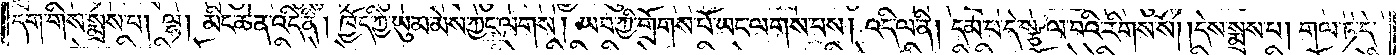དག་གིས་སྨྲས་པ། ལྷ། མིང་ཆེན་འདི་ནི། ཁྱོད་ཀྱི་ཡུམ་མེས་ཀྱང་ལགས། ཡབ་ཀྱི་གྲོགས་པོ་ཡང་ལགས་པས། འདི་ལ་ནི། དམ་པ་དེ་སྩལ་བའི་རིགས་སོ། །དེས་སྨྲས་པ། གལ་ཏེ་དེ་
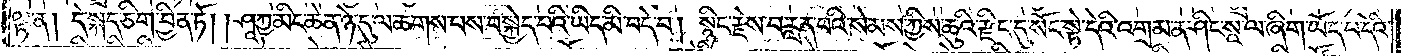ལྟ་ན། དེ་སྐད་ཅིག་བྱིན་ཏོ། །ཤཱཀྱ་མིང་ཆེན་ཉེ་དུ་ལ་ཆགས་པས་བསྐྱེད་པའི་ཡིད་མི་བདེ་བ། སྙིང་རྗེས་བརླན་པའི་སེམས་ཀྱིས་ཆུའི་རྫིང་དུ་སོང་སྟེ་དེའི་འགྲམ་ན་ཤིང་སཱ་ལ་ཞིག་ཡོད་པ་དེའི་
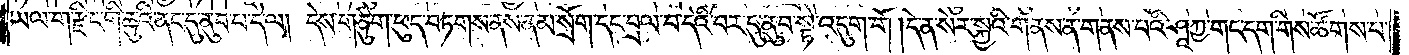ཡལ་ག་རྫིང་གི་ཆུའི་ནང་དུ་ནུབ་པ་དེ་ལ། དེས་གཙུག་ཕུད་བཏགས་ནས་ནམ་སྲོག་དང་བྲལ་བ་དེའི་བར་དུ་ནུབ་སྟེ་འདུག་གོ །དེ་ན་སེར་སྐྱའི་གནས་ན་གནས་པའི་ཤཱཀྱ་གང་དག་གིས་ཚོགས་པ་
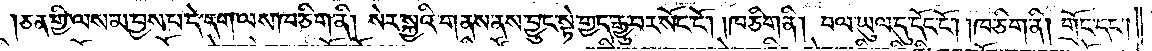ཅན་གྱི་ལས་མ་བྱས་པ་དེ་དག་ལས་ཁ་ཅིག་ནི། སེར་སྐྱའི་གནས་ནས་བྱུང་སྟེ་གྱད་རྒྱུ་བར་སོང་ངོ༌། །ཁ་ཅིག་ནི། བལ་ཡུལ་དུ་དོང་ངོ༌། །ཁ་ཅིག་ནི། གྲོང་དང༌།
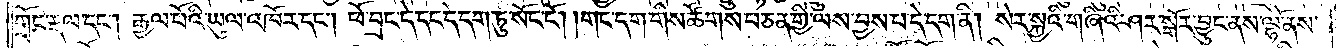གྲོང་རྡལ་དང༌། རྒྱལ་པོའི་ཡུལ་འཁོར་དང༌། ཕོ་བྲང་དེ་དང་དེ་དག་ཏུ་སོང་ངོ༌། །གང་དག་གིས་ཚོགས་པ་ཅན་གྱི་ལས་བྱས་པ་དེ་དག་ནི། སེར་སྐྱའི་གཞིའི་ཤར་སྒོར་བྱུང་ནས་ལྷོ་ནས་
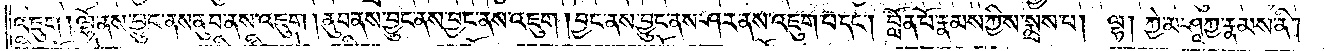འཇུག །ལྷོ་ནས་བྱུང་ནས་ནུབ་ནས་འཇུག །ནུབ་ནས་བྱུང་ནས་བྱང་ནས་འཇུག །བྱང་ནས་བྱུང་ནས་ཤར་ནས་འཇུག་པ་དང༌། བློན་པོ་རྣམས་ཀྱིས་སྨྲས་པ། ལྷ། ཀྱེ་མ་ཤཱཀྱ་རྣམས་ནི།
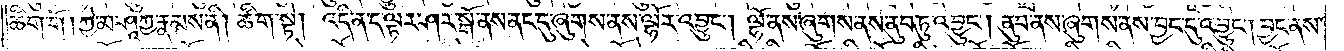ཚིག་གོ །ཀྱེ་མ་ཤཱཀྱ་རྣམས་ནི། ཚིག་སྟེ། འདི་ན་ད་ལྟར་ཤར་སྒོ་ནས་ནང་དུ་ཞུགས་ནས་ལྷོར་འབྱུང༌། ལྷོ་ནས་ཞུགས་ནས་ནུབ་ཏུ་འབྱུང༌། ནུབ་ནས་ཞུགས་ནས་བྱང་དུ་འབྱུང༌། བྱང་ནས་
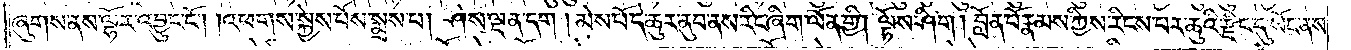ཞུགས་ནས་ལྷོར་འབྱུང་ངོ༌། །འཕགས་སྐྱེས་པོས་སྨྲས་པ། ཤེས་ལྡན་དག །མེས་པོ་དེ་ཆུར་ནུབ་ནས་རིང་ཞིག་ལོན་གྱི། ལྟོས་ཤིག །བློན་པོ་རྣམས་ཀྱིས་རིངས་པར་ཆུའི་རྫིང་དུ་སོང་ནས་
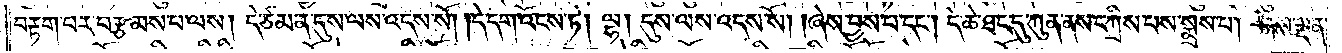བརྟག་པར་བརྩམས་པ་ལས། དེ་ཙམ་ན་དུས་ལས་འདས་སོ། །དེ་དག་འོངས་ཏེ། ལྷ། དུས་ལས་འདས་སོ། །ཞེས་བྱས་པ་དང༌། དེ་ཆེ་ཐང་དུ་ཀུན་ནས་དཀྲིས་པས་སྨྲས་པ། ཤེས་ལྡན་
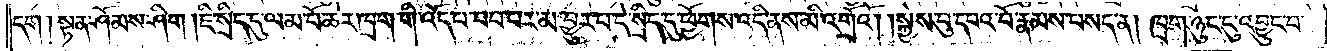དག །སྟན་ཤོམས་ཤིག །ཇི་སྲིད་དུ་ལམ་པོ་ཆེར་ཁྲག་གི་འོད་པ་བབ་པར་མ་བྱུར་པ་དེ་སྲིད་དུ་ཕྱོགས་འདི་ནས་མི་འགྲོའོ། །སྐྱེས་བུ་དཔའ་བོ་རྣམས་བསད་ན། ཁྲག་ཉུང་ངུ་འབྱུང་བ་
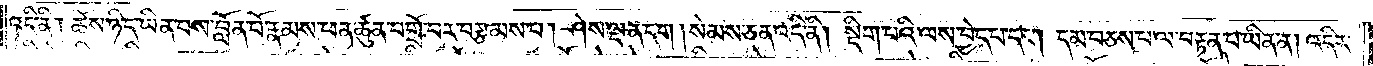འདི་ནི། ཆོས་ཉིད་ཡིན་པས་བློན་པོ་རྣམས་ཕན་ཚུན་བགྲོ་བར་བརྩམས་པ། ཤེས་ལྡན་དག །སེམས་ཅན་འདི་ནི། སྡིག་པའི་ལས་བྱེད་པ་དང༌། དམ་བཅས་པ་ལ་བརྟན་པ་ཡིན་ན། འདིར་
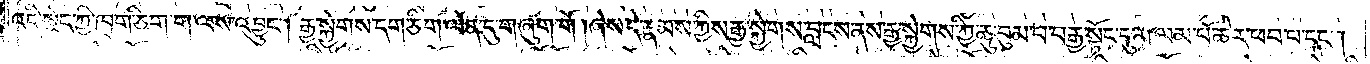འདི་སྙེད་ཀྱི་ཁྲག་ཅིག་ག་ལས་འབྱུང༌། རྒྱ་སྐྱེགས་དག་ཅིག་ལེན་དུ་གཞུག་གོ། ཞེས་དེ་རྣམས་ཀྱིས་རྒྱ་སྐྱེགས་བླངས་ནས་རྒྱ་སྐྱེགས་ཀྱི་ཆུ་བུམ་པ་བརྒྱ་སྟོང་དུ་མ་ལམ་པོ་ཆེར་ཕབ་པ་དང༌།
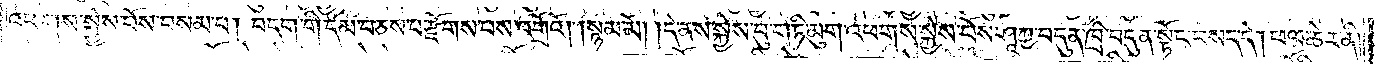འཕགས་སྐྱེས་པོས་བསམ་པ། བདག་གི་དམ་བཅས་པ་རྫོགས་པས་འགྲོའོ། །སྙམ་མོ། །དེ་ནས་སྐྱེས་བུ་གཏི་མུག་འཕགས་སྐྱེས་པོས་ཤཱཀྱ་བདུན་ཁྲི་བདུན་སྟོང་བསད་དེ། ཕལ་ཆེར་ནི།
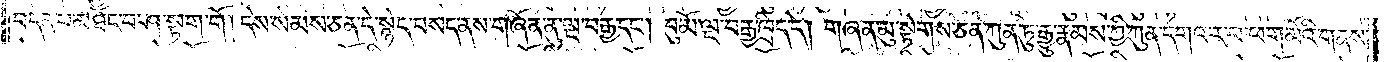བདེན་པ་མཐོང་བ་ཤ་སྟག་གོ །དེས་སེམས་ཅན་དེ་སྙེད་བསད་ནས་གཞོན་ནུ་ལྔ་བརྒྱ་དང༌། བུ་མོ་ལྔ་བརྒྱ་ཁྲིད་དེ། གཞན་མུ་སྟེགས་ཅན་ཀུན་ཏུ་རྒྱུ་རྣམས་ཀྱི་ཀུན་དགའ་ར་བ་ཕག་མོའི་གནས་
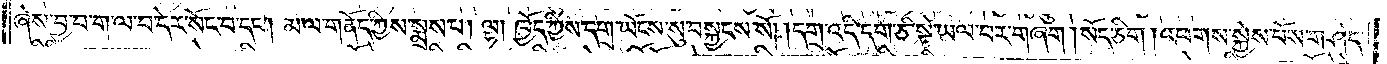ཞེས་བྱ་བ་ག་ལ་བ་དེར་སོང་བ་དང༌། མ་ལ་གནོད་ཀྱིས་སྨྲས་པ། ལྷ། ཁྱོད་ཀྱིས་དགྲ་ཡོངས་སུ་བསྐྱངས་སོ། །དགྲ་འདི་དག་ཅི་སྟེ་ཡལ་བར་གཞག །སོད་ཅིག །འཕགས་སྐྱེས་པོས་གཤེད་
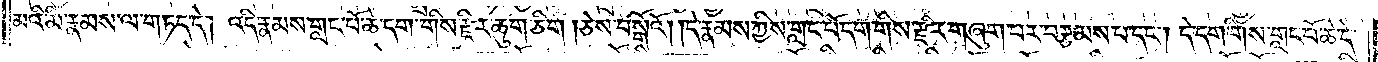མའི་མི་རྣམས་ལ་གཏད་དེ། འདི་རྣམས་གླང་པོ་ཆེ་དག་གིས་རྫིར་ཆུག་ཅིག །ཅེས་བསྒོའོ། །དེ་རྣམས་ཀྱིས་གླང་པོ་དག་གིས་རྫིར་གཞུག་པར་བརྩམས་པ་དང༌། དེ་དག་གིས་གླང་པོ་ཆེ་དེ་
